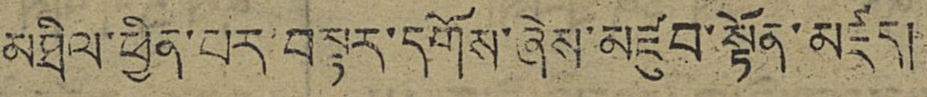མཐིལ་ཕྱིན་པར་བསྟར་དགོས་ཞེས་མཛུབ་སྟོན་མཛད།
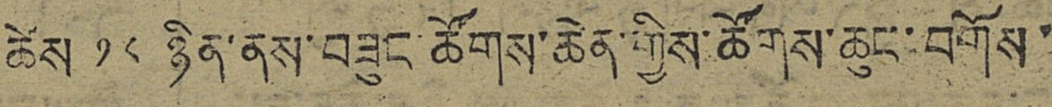ཚེས ༡༨ ཉིན་ནས་བཟུང་ཚོགས་ཆེན་གྱིས་ཚོགས་ཆུང་བགོས་
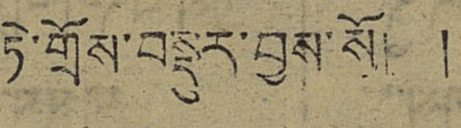ཏེ་གྲོས་བསྡུར་བྱས་སོ། །
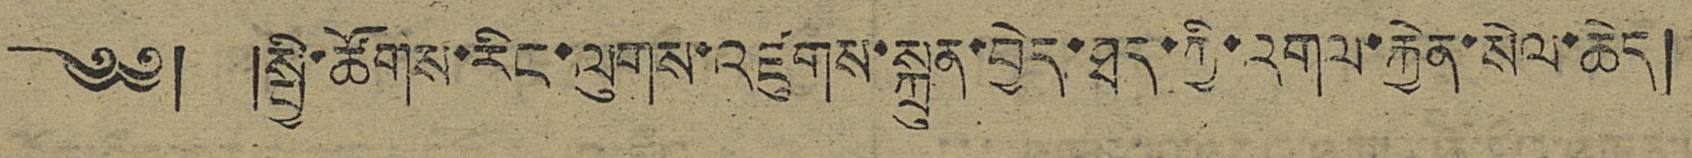༄༅། །སྤྱི་ཚོགས་རིང་ལུགས་འཛུགས་སྐྲུན་བྱེད་ཐད་ཀྱི་འགལ་རྐྱེན་སེལ་ཆེད།
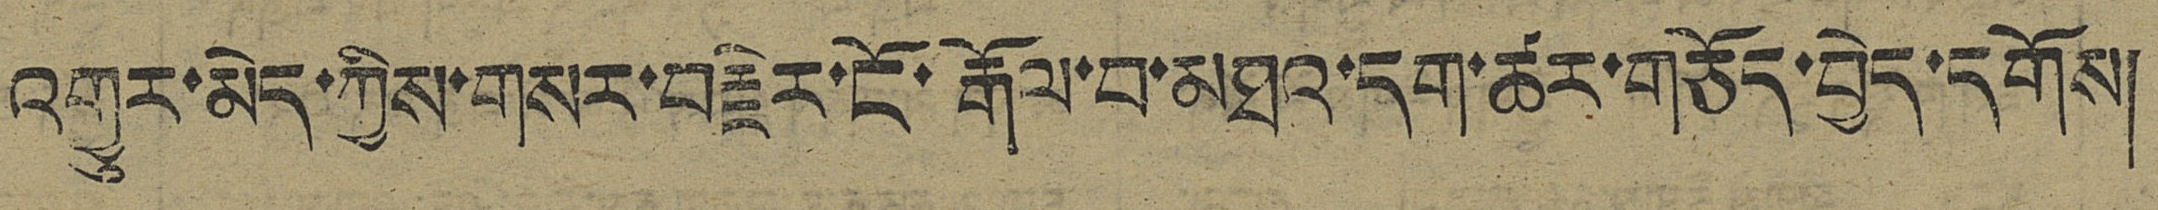འགྱུར་མེད་ཀྱིས་གསར་བརྗེར་ངོ་རྒོལ་བ་མཐའ་དག་ཚར་གཅོད་བྱེད་དགོས།
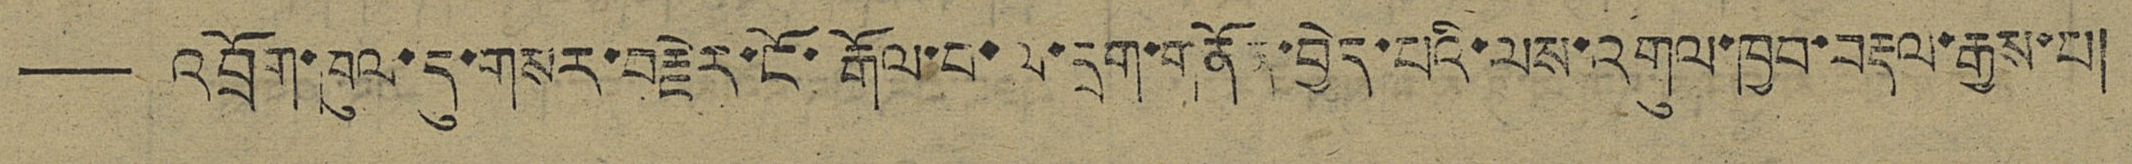——འབྲོག་ཁུལ་དུ་གསར་བརྗེར་ངོ་རྒོལ་བ་ལ་དྲག་གནོན་བྱེད་པའི་ལས་འགུལ་ཁྱབ་བརྡལ་རྒྱས་པ།
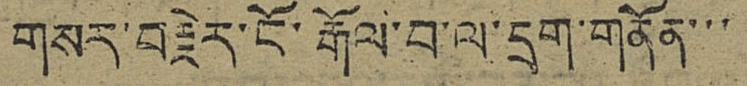གསར་བརྗེར་ངོ་རྒོལ་བ་ལ་དྲག་གནོན་་་
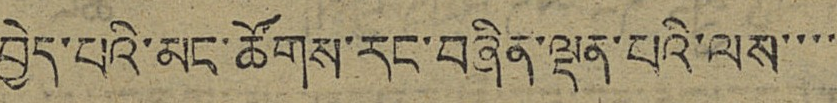བྱེད་པའི་མང་ཚོགས་རང་བཞིན་ལྡན་པའི་ལས་་་་་
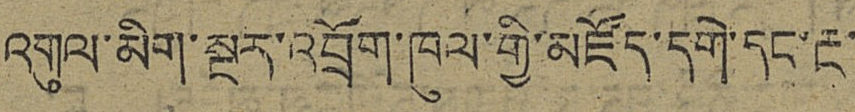འགུལ་མིག་སྔར་འབྲོག་ཁུལ་གྱི་མཛོད་དགེ་དང་རྔ་
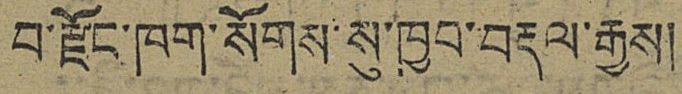བ་རྫོང་ཁག་སོགས་སུ་ཁྱབ་བརྡལ་རྒྱས།
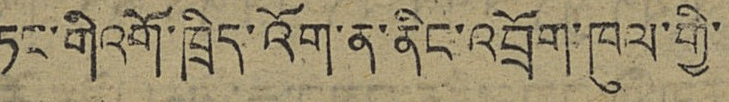ཏང་གི་འགོ་ཁྲིད་འོག་ན་ནིང་འབྲོག་ཁུལ་གྱི་
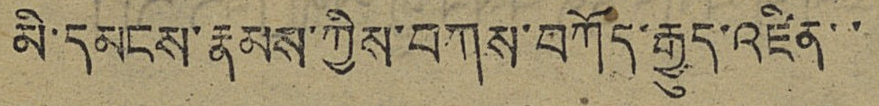མི་དམངས་རྣམས་ཀྱིས་བཀས་བཀོད་རྒྱུད་འཛིན་་
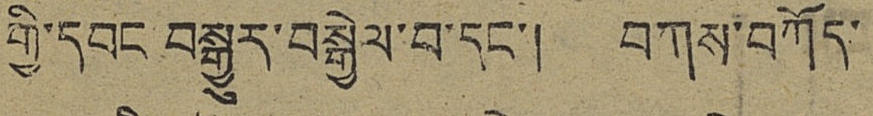གྱི་དབང་བསྒྱུར་བསྒྱེལ་བ་དང་། བཀས་བཀོད་
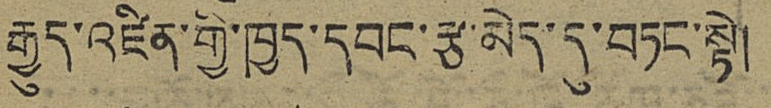རྒྱུད་འཛིན་གྱི་ཁྱད་དབང་རྩ་མེད་དུ་བཏང་སྟེ།
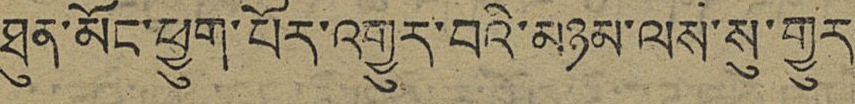ཐུན་མོང་ཕྱུག་པོར་འགྱུར་བའི་མཉམ་ལས་སུ་གྱུར
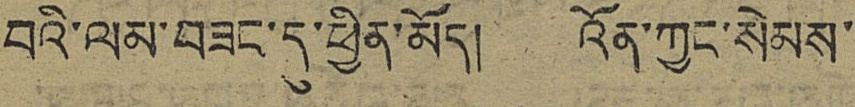བའི་ལམ་བཟང་དུ་ཕྱིན་མོད། འོན་ཀྱང་སེམས་
